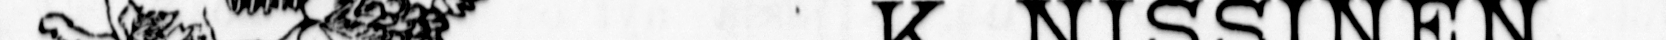Suolattuja kurkkuja.
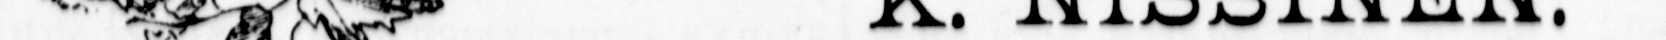K. NISSINEN.
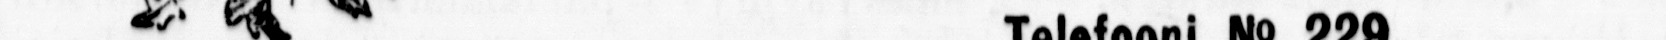Telefooni No 229.
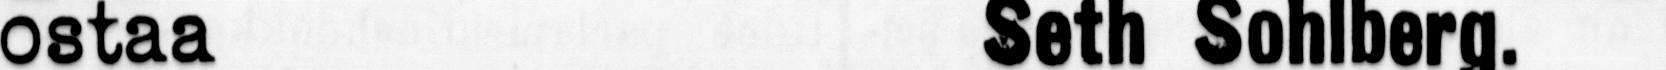Ramurautaa
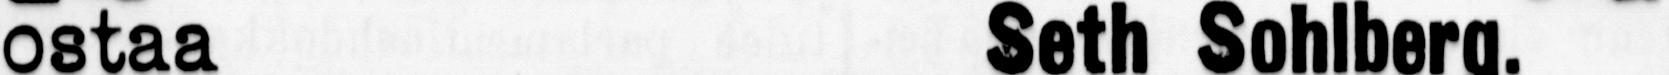ostaa Seth Sohlborg.
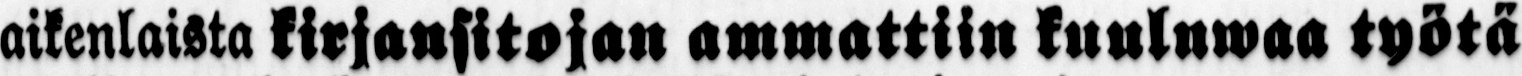Kaikenlaista kirjansitojan ammattiin kuuluwaa työtä
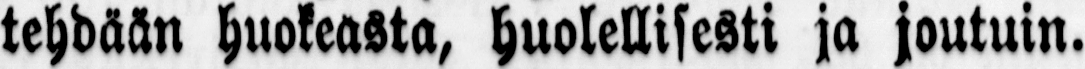tehdään huokeasta, huolellisesti ja joutuin.
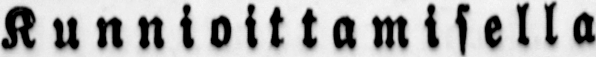Kunnioittamisella
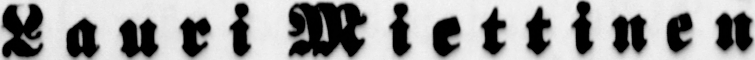Lauri Miettinen.
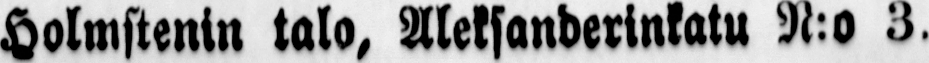Holmstenin talo, Aleksanderinkatu N:o 3.
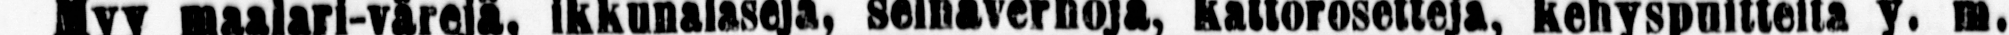Myy maalari-värejä, ikkunaiaseja, kattorosetteja, kehyspuitteita y. m.
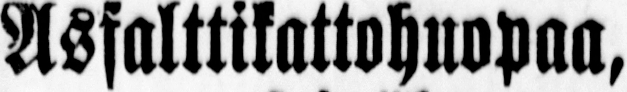Asfalttikattohuopaa,
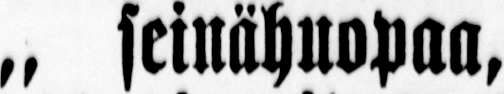„ seinähuopaa,
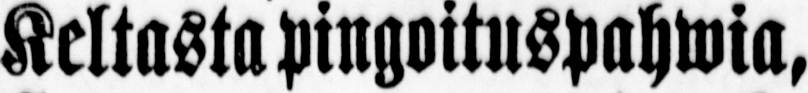Keltasta pingoituspahwia,
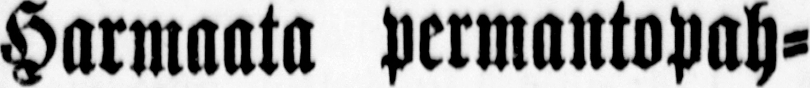Harmaata permantopah-
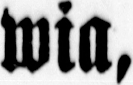wia,
